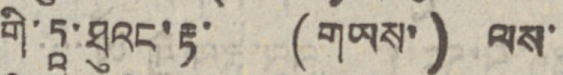གི་ཏཱ་ཐུའང་རྟ་ (གཡས་) ལས་
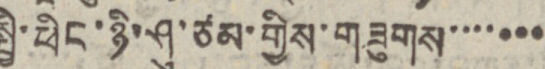སྤྱི་ཕིང་ཉི་ཤུ་ཙམ་གྱིས་གཟུགས་་་་་་་
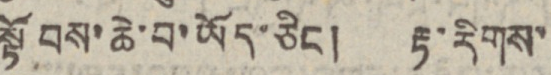སྟོབས་ཆེ་བ་ཡོད་ཅིང། རྟ་རིགས་
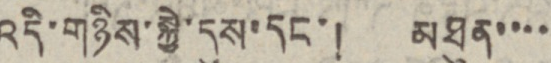འདི་གཉིས་སྐྱེ་དུས་དང་། མཐུན་་་་
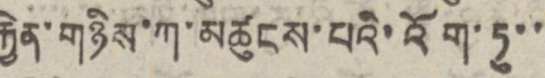རྐྱེན་གཉིས་ཀ་མཚུངས་པའི་འོག་ཏུ་་
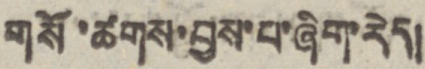གསོ་ཚགས་བྱས་པ་ཞིག་རེད།
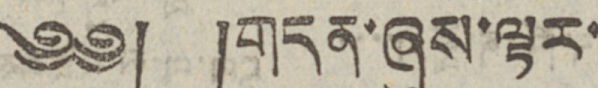༄༅། །གདན་ཞུས་ལྟར་
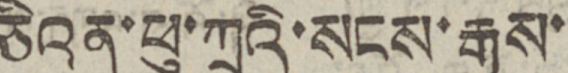ཅིའན་ཕུ་ཀྲའི་སངས་རྒྱས་
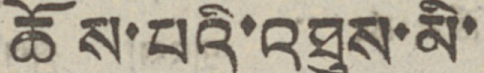ཆོས་པའི་འཐུས་མི་
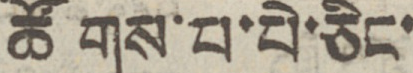ཚོགས་པ་པེ་ཅིང་
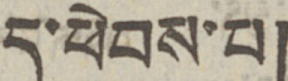དུ་ཕེབས་པ།
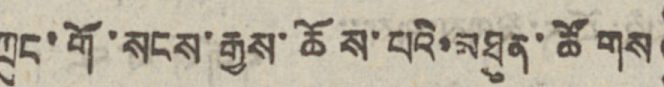ཀྲུང་གོ་སངས་རྒྱས་ཆོས་པའི་མཐུན་ཚོགས
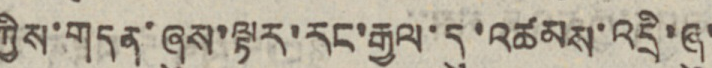ཀྱིས་གདན་ཞུས་ལྟར་རང་རྒྱལ་དུ་འཚམས་འདྲི་ཞུ་
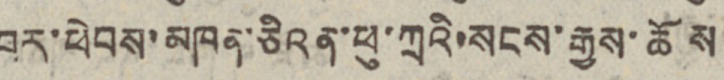བར་ཕེབས་མཁན་ཅིའན་ཕུ་ཀྲའི་སངས་རྒྱས་ཆོས
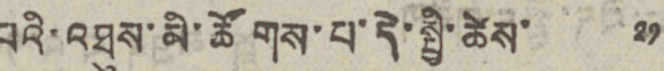པའི་འཐུས་མི་ཚོགས་པ་དེ་སྤྱི་ཚེས་ ༢༡
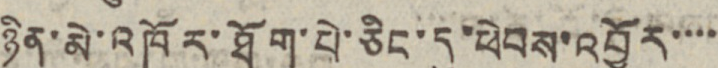ཉིན་མེ་འཁོར་ཐོག་པེ་ཅིང་དུ་ཕེབས་འབྱོར་་་་
